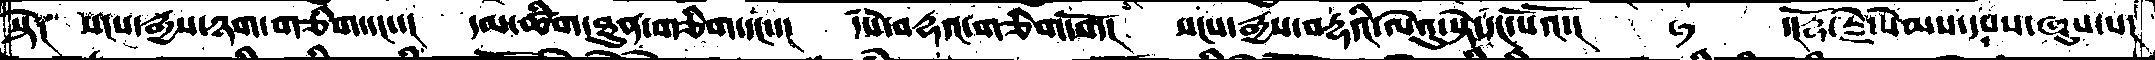སྟེ༑   སངས་རྒྱས་ཉག་གཅིག་དང་་།  དམ་ཚིག་ཐུན་གཅིག་དང་་།  དཔེ་བརྡའ་གཅིག་གོ། སངས་རྒྱས་བརྡའི་ལེའུ་སྟེ་དང་པོའོ་།  ཧ  ་།རྡོ་རྗེ་སེམས་དཔས་ཞུས་པ།
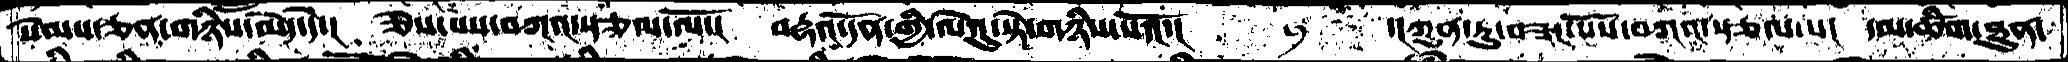སེམས་ཅན་གཉིས་མེད་དེ་། ཅེས་པས་བཀའ་སྩལ་ལོ་།  བརྡའ་དོན་གྱི་ལེའུ་སྟེ་གཉིས་པའོ་།   ཧ   ་།ཀུན་ཏུ་བཟང་པོས་བཀའ་སྩལ་པ།  དམ་ཚིག་ཐུན་
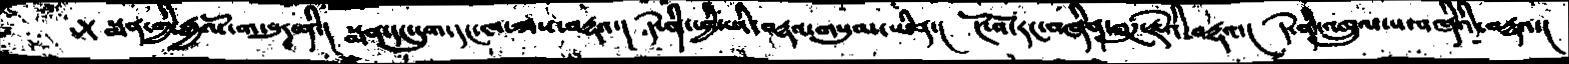སྨན་གྱི་རྒྱལོ་ག་བུར་ནི་། སྨན་དང་དུག་དང་ཁ་ཟས་བརྡའ་། དེ་ནི་ཕྱིས་ཡི་བརྡའ་གསུམ་ཡིན་། ངོ་བོ་རང་བཞིན་ཐུཌ་རྗེའི་བརྡའ་། དེ་ནི་འཁྲུལ་པ་བཞིའི་བརྡའ་།
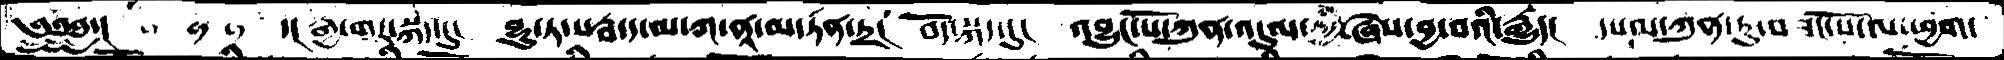༄༅༅་།    ་།རྒྱ་གར་སྐད་དུ།  བྷུ་ཏ་སརྦ་ད་མ་ཀ་ནཱ་མ་ཏན་ཏྲ།  བོད་སྐད་དུ། འབྱུང་པོ་ཀུན་འདུལ་གྱི་ཞེས་བྱ་བའི་རྒྱུད། དཔལ་ཀུན་ཏུ་བཟང་པོ་ལ་ཕྱག་
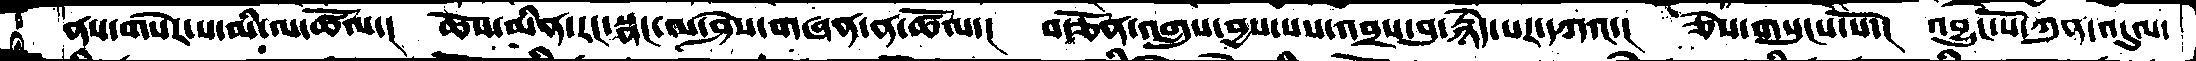ནས་གསེར་ས་མི་ལ་ཚོལ་། ཆོས་མིན་རང་སྣང་མ་ཤེས་གཞན་ན་ཚོལ་། བརྩོན་འགྲུས་བྱས་པས་འབྲས་བུ་རྙེད་པར་དཀའ་། ཅེས་གསུངས་སོ་། འབྱུང་པོ་ཀུན་འདུལ་
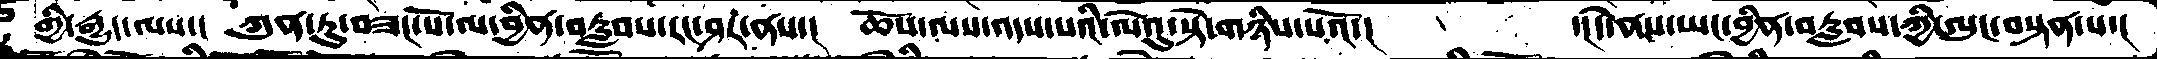གྱི་རྒྱུད་ལས་། ཀུན་ཏུ་བཟང་པོ་ལ་བྱིན་བརླབས་རང་ཤར་ནས་། ཆསོ་ལས་འདས་པའི་ལེའུ་སྟེ་གཉིས་པའོ་།    ་།དེ་ནས་ཡང་བྱིན་བརླབས་ཀྱི་ལུང་བསྟན་པ་།
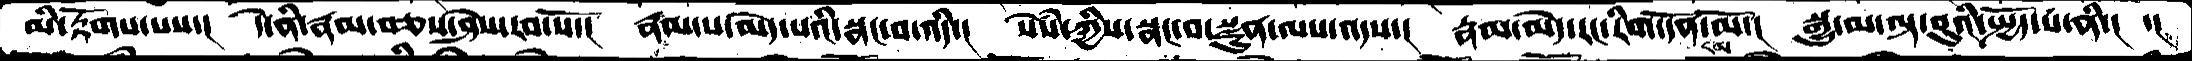མི་རྟོགས་པས་། དེ་ནི་རྣམ་བཅས་ཤེས་རབ་སོ་། རྣམ་པ་མེད་པའི་སྣང་བ་འདི་། སེཾས་ཀྱིས་སྣང་བ་སྫུན་ལས་འདས་། རྣམ་མེད་རང་རིག་དོན་དམ་མོ་། སྒྱུ་མ་ལྟ་བུའི་སྤྱོད་པ་ནི་།   ་།
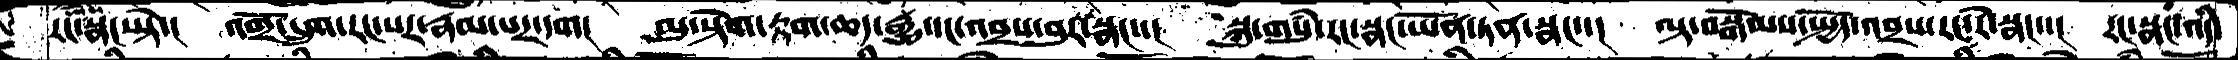རང་སྣང་སྟེ་། འགྲོ་དྲུག་རང་སར་རྣམ་པར་དག། མུ་སྟེག་རྟག་ཆད་རྒྱུ་དང་འབྲས་བུར་སྣང་་། སྐུ་གསུཾ་རང་སྣང་ཡོན་ཏན་སྣང་་། ལྟ་བསྒོམས་སྤྱོད་འབྲས་རང་རེ་སྣང་་། རང་སྣང་འདི་
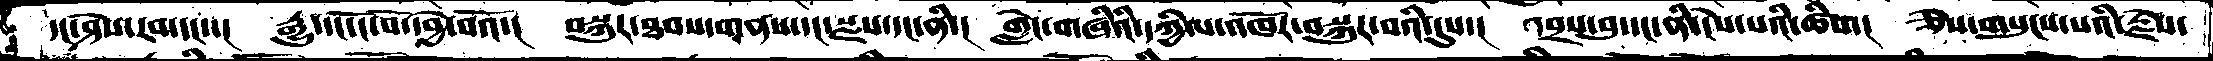དང་ཤེས་རབ་དང་་། རྒྱུ་དང་ངོ་བོ་དབྱེ་བའོ་། བསྐུར་ཐབས་གནས་དང་སྫས་དང་ནི་། གླེང་གཞིའི་དཀྱིལ་འཁོར་བསྐུར་བའི་དུས་། འབྲས་བུ་དང་ནི་ངེས་པའི་ཚིག། ཅེས་གསུངས་པའི་རྗེས་
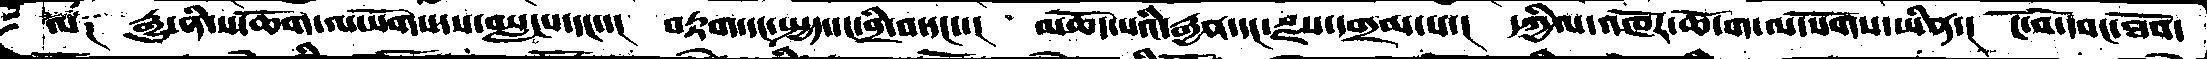ལ༑  རྒྱུ་ནི་ས་ཆོག་ལ་སོགས་པ་བསླངས་དང་་།  བརྟག་དང་སྤྱད་དང་བྲི་བ་དང་་།  མཆོད་པའི་རྒྱན་དང་སྫས་དགྲམ་པ་།  དཀྱིལ་འཁོར་ཆོ་ག་ལ་སོགས་ཡིན་།  ངོ་བོ་དབང་ཐོབ་
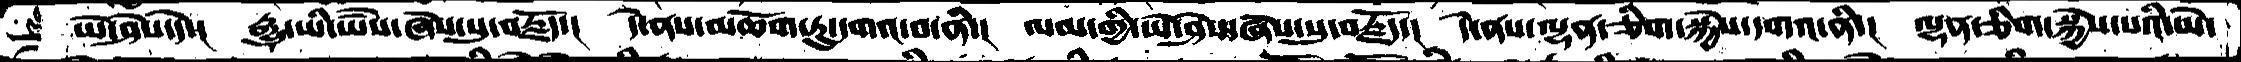ཡེ་ཤེས་དེ་།  རྒྱུ་ཡི་ཡེ་ཤེས་ཞེས་སུ་བརྗོད་།  དེ་ནས་མཆོག་ཏུ་དགའ་བ་ནི་།  ལམ་གྱི་ཡེ་ཤེས་ཞེས་སུ་བརྗོད་།  དེ་ནས་ལྷན་ཅིག་སྐྱེས་དགའ་ནི་།  ལྷན་ཅིག་སྐྱེས་པའི་མེ་
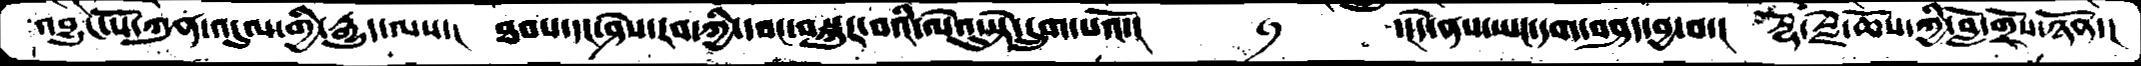འབྱུང་པོ་ཀུན་འདུལ་གྱི་རྒྱུད་ལས་།  ཐབས་དང་ཤེས་རབ་ཀྱི་དབང་བསྐུར་བའི་ལེའུ་སྟེ་དྲུག་པའོ་།  ཧ ་།དེ་ནས་ཡང་དག་བཤད་བྱ་བ་།  རྡོ་རྗེ་ཆོས་ཀྱི་བློ་གྲོས་ཉོན་།
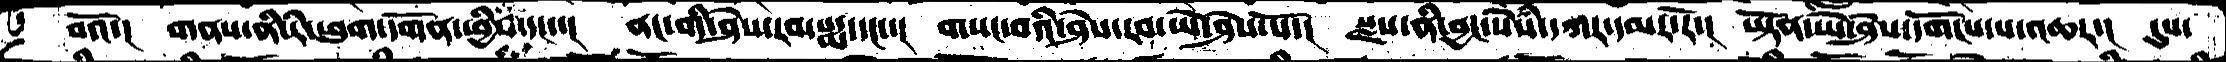བའོ་།  གནས་ནི་རི་ཕུག་དགོན་ཕྱིས་དང་་།  ནང་གི་ཤེས་རབ་པདྨ་དང་་།  གསང་བའི་ཤེས་རབ་ཡེ་ཤེས་སོ་།  སྫས་ནི་བྱང་སེཾས་དཀར་དམར་རོ་།  ཡྟོན་ཡེ་ཤེས་དགོངས་པ་འཆར་།  དུས་
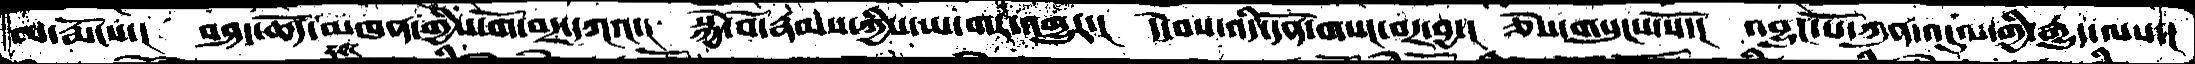ལ་རྨོངས་།  བཤད་ཆོད་མཁན་གྱིས་གོ་བར་དཀའ་།  སྐྱེ་བོ་རྣམས་ཀྱིས་ཡ་གར་འགྱུར་།  དེ་བས་འདི་དོན་གསང་བར་བྱ་། ཅེས་གསུངས་སོ་།  འབྱུང་པོ་ཀུན་འདུལ་གྱི་རྒྱུད་ལས་།
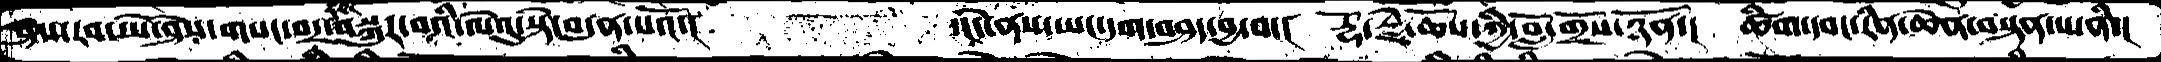ཤེས་རབ་ཡེ་ཤེས་གསང་བར་དབང་བསྐུར་བའི་ལེའུ་སྟེ་བདུན་པའོ་།    ་།དེ་ནས་ཡང་དག་བཤད་བྱ་བ་།  རྡོ་རྗེ་ཆོས་ཀྱི་བློ་གྲོས་ཉོན་།  ཚིག་དབང་རིན་ཆེན་བསྟན་པ་ནི་།
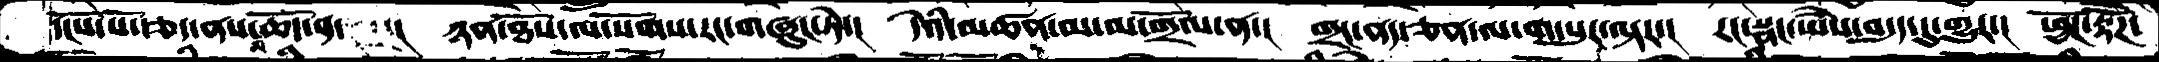དངོས་པོ་རྩད་ནས་མི་ཆོད་ན་  །   ཉན་ཐོས་ལ་སོགས་རང་གཞུང་ཏེ་།  དེའི་མཚན་མ་མ་གྲོལ་ན་།  གྲང་ནད་ཅན་ལ་ག་པུར་ལྟར་།  རང་སྣང་ཡཻས་བདུད་དུ་གྱུར་།  ཕྱོཌ་རྟོཌ་
